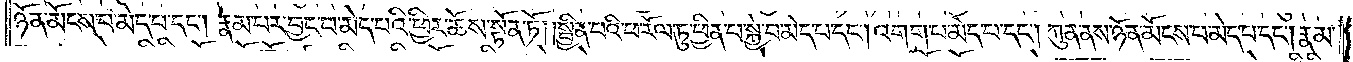ཉོན་མོངས་པ་མེད་པ་དང༌། རྣམ་པར་བྱང་བ་མེད་པའི་ཕྱིར་ཆོས་སྟོན་ཏོ། །སྦྱིན་པའི་ཕ་རོལ་ཏུ་ཕྱིན་པ་སྐྱེ་བ་མེད་པ་དང༌། འགག་པ་མེད་པ་དང༌། ཀུན་ནས་ཉོན་མོངས་པ་མེད་པ་དང༌། རྣམ་
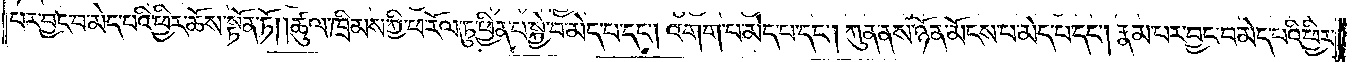པར་བྱང་བ་མེད་པའི་ཕྱིར་ཆོས་སྟོན་ཏོ། །ཚུལ་ཁྲིམས་ཀྱི་ཕ་རོལ་ཏུ་ཕྱིན་པ་སྐྱེ་བ་མེད་པ་དང༌། འགག་པ་མེད་པ་དང༌། ཀུན་ནས་ཉོན་མོངས་པ་མེད་པ་དང༌། རྣམ་པར་བྱང་བ་མེད་པའི་ཕྱིར་
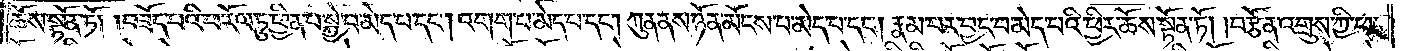ཆོས་སྟོན་ཏོ། །བཟོད་པའི་ཕ་རོལ་ཏུ་ཕྱིན་པ་སྐྱེ་བ་མེད་པ་དང༌། འགག་པ་མེད་པ་དང༌། ཀུན་ནས་ཉོན་མོངས་པ་མེད་པ་དང༌། རྣམ་པར་བྱང་བ་མེད་པའི་ཕྱིར་ཆོས་སྟོན་ཏོ། །བརྩོན་འགྲུས་ཀྱི་ཕ་
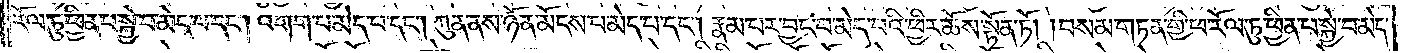རོལ་ཏུ་ཕྱིན་པ་སྐྱེ་བ་མེད་པ་དང༌། འགག་པ་མེད་པ་དང༌། ཀུན་ནས་ཉོན་མོངས་པ་མེད་པ་དང༌། རྣམ་པར་བྱང་བ་མེད་པའི་ཕྱིར་ཆོས་སྟོན་ཏོ། །བསམ་གཏན་གྱི་ཕ་རོལ་ཏུ་ཕྱིན་པ་སྐྱེ་བ་མེད་
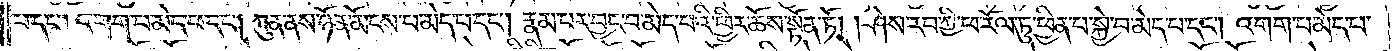པ་དང༌། འགག་པ་མེད་པ་དང༌། ཀུན་ནས་ཉོན་མོངས་པ་མེད་པ་དང༌། རྣམ་པར་བྱང་བ་མེད་པའི་ཕྱིར་ཆོས་སྟོན་ཏོ། །ཤེས་རབ་ཀྱི་ཕ་རོལ་ཏུ་ཕྱིན་པ་སྐྱེ་བ་མེད་པ་དང༌། འགག་པ་མེད་པ་
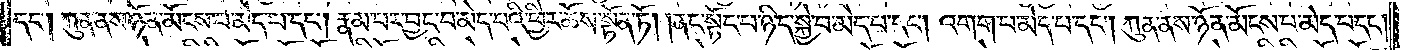དང༌། ཀུན་ནས་ཉོན་མོངས་པ་མེད་པ་དང༌། རྣམ་པར་བྱང་བ་མེད་པའི་ཕྱིར་ཆོས་སྟོན་ཏོ། །ནང་སྟོང་པ་ཉིད་སྐྱེ་བ་མེད་པ་དང༌། འགག་པ་མེད་པ་དང༌། ཀུན་ནས་ཉོན་མོངས་པ་མེད་པ་དང༌།
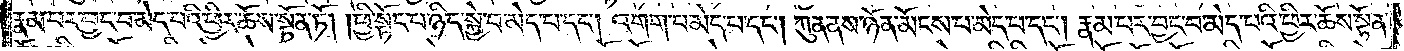རྣམ་པར་བྱང་བ་མེད་པའི་ཕྱིར་ཆོས་སྟོན་ཏོ། །ཕྱི་སྟོང་པ་ཉིད་སྐྱེ་བ་མེད་པ་དང༌། འགག་པ་མེད་པ་དང༌། ཀུན་ནས་ཉོན་མོངས་པ་མེད་པ་དང༌། རྣམ་པར་བྱང་བ་མེད་པའི་ཕྱིར་ཆོས་སྟོན་
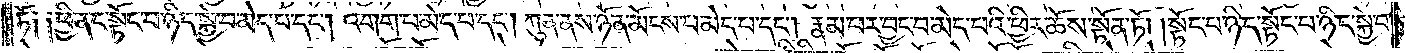ཏོ༑ ༑ཕྱི་ནང་སྟོང་པ་ཉིད་སྐྱེ་བ་མེད་པ་དང༌། འགག་པ་མེད་པ་དང༌། ཀུན་ནས་ཉོན་མོངས་པ་མེད་པ་དང༌། རྣམ་པར་བྱང་བ་མེད་པའི་ཕྱིར་ཆོས་སྟོན་ཏོ། །སྟོང་པ་ཉིད་སྟོང་པ་ཉིད་སྐྱེ་བ་
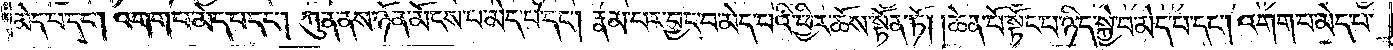མེད་པ་དང༌། འགག་པ་མེད་པ་དང༌། ཀུན་ནས་ཉོན་མོངས་པ་མེད་པ་དང༌། རྣམ་པར་བྱང་བ་མེད་པའི་ཕྱིར་ཆོས་སྟོན་ཏོ། །ཆེན་པོ་སྟོང་པ་ཉིད་སྐྱེ་བ་མེད་པ་དང༌། འགག་པ་མེད་པ་
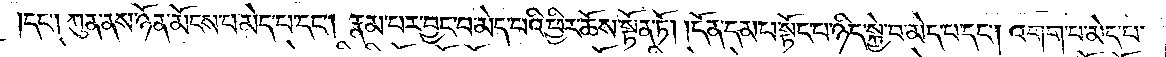དང༌། ཀུན་ནས་ཉོན་མོངས་པ་མེད་པ་དང༌། རྣམ་པར་བྱང་བ་མེད་པའི་ཕྱིར་ཆོས་སྟོན་ཏོ། །དོན་དམ་པ་སྟོང་པ་ཉིད་སྐྱེ་བ་མེད་པ་དང༌། འགག་པ་མེད་པ་
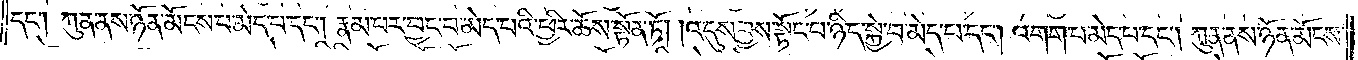དང༌། ཀུན་ནས་ཉོན་མོངས་པ་མེད་པ་དང༌། རྣམ་པར་བྱང་བ་མེད་པའི་ཕྱིར་ཆོས་སྟོན་ཏོ། །འདུས་བྱས་སྟོང་པ་ཉིད་སྐྱེ་བ་མེད་པ་དང༌། འགག་པ་མེད་པ་དང༌། ཀུན་ནས་ཉོན་མོངས་
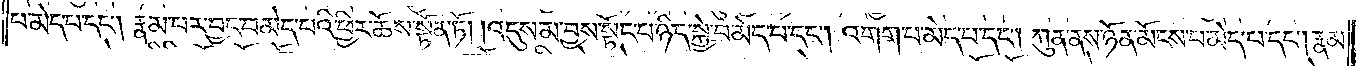པ་མེད་པ་དང༌། རྣམ་པར་བྱང་བ་མེད་པའི་ཕྱིར་ཆོས་སྟོན་ཏོ། །འདུས་མ་བྱས་སྟོང་པ་ཉིད་སྐྱེ་བ་མེད་པ་དང༌། འགག་པ་མེད་པ་དང༌། ཀུན་ནས་ཉོན་མོངས་པ་མེད་པ་དང༌། རྣམ་
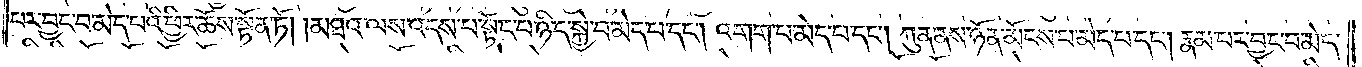པར་བྱང་བ་མེད་པའི་ཕྱིར་ཆོས་སྟོན་ཏོ། །མཐའ་ལས་འདས་པ་སྟོང་པ་ཉིད་སྐྱེ་བ་མེད་པ་དང༌། འགག་པ་མེད་པ་དང༌། ཀུན་ནས་ཉོན་མོངས་པ་མེད་པ་དང༌། རྣམ་པར་བྱང་བ་མེད་
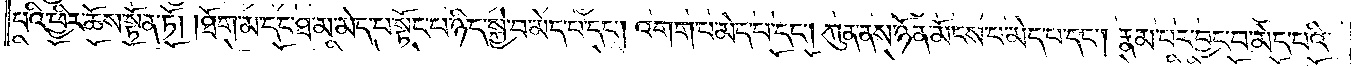པའི་ཕྱིར་ཆོས་སྟོན་ཏོ། །ཐོག་མ་དང་ཐ་མ་མེད་པ་སྟོང་པ་ཉིད་སྐྱེ་བ་མེད་པ་དང༌། འགག་པ་མེད་པ་དང༌། ཀུན་ནས་ཉོན་མོངས་པ་མེད་པ་དང༌། རྣམ་པར་བྱང་བ་མེད་པའི་
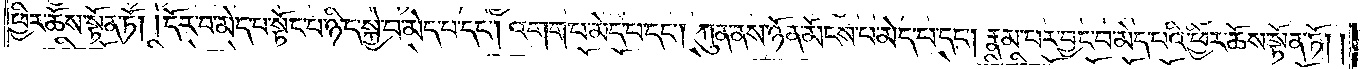ཕྱིར་ཆོས་སྟོན་ཏོ། །དོར་བ་མེད་པ་སྟོང་པ་ཉིད་སྐྱེ་བ་མེད་པ་དང༌། འགག་པ་མེད་པ་དང༌། ཀུན་ནས་ཉོན་མོངས་པ་མེད་པ་དང༌། རྣམ་པར་བྱང་བ་མེད་པའི་ཕྱིར་ཆོས་སྟོན་ཏོ། །
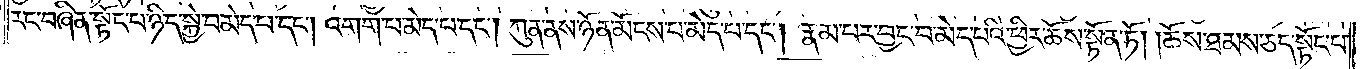རང་བཞིན་སྟོང་པ་ཉིད་སྐྱེ་བ་མེད་པ་དང༌། འགག་པ་མེད་པ་དང༌། ཀུན་ནས་ཉོན་མོངས་པ་མེད་པ་དང༌། རྣམ་པར་བྱང་བ་མེད་པའི་ཕྱིར་ཆོས་སྟོན་ཏོ། །ཆོས་ཐམས་ཅད་སྟོང་པ་
